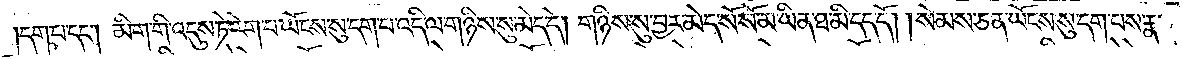དག་པ་དང༌། མིག་གི་འདུས་ཏེ་རེག་པ་ཡོངས་སུ་དག་པ་འདི་ལ་གཉིས་སུ་མེད་དེ། གཉིས་སུ་བྱར་མེད་སོ་སོ་མ་ཡིན་ཐ་མི་དད་དོ། །སེམས་ཅན་ཡོངས་སུ་དག་པས་རྣ་
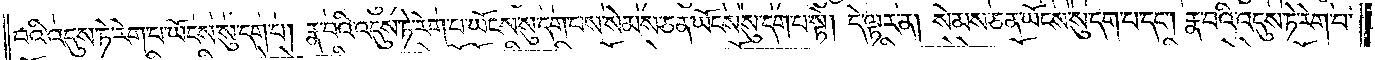བའི་འདུས་ཏེ་རེག་པ་ཡོངས་སུ་དག་པ། རྣ་བའི་འདུས་ཏེ་རེག་པ་ཡོངས་སུ་དག་པས་སེམས་ཅན་ཡོངས་སུ་དག་པ་སྟེ། དེ་ལྟར་ན། སེམས་ཅན་ཡོངས་སུ་དག་པ་དང༌། རྣ་བའི་འདུས་ཏེ་རེག་པ་
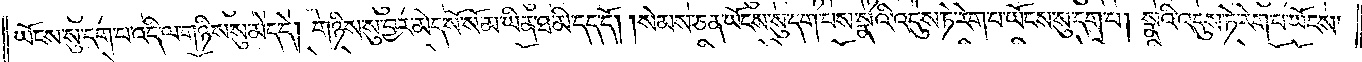ཡོངས་སུ་དག་པ་འདི་ལ་གཉིས་སུ་མེད་དེ། གཉིས་སུ་བྱར་མེད་སོ་སོ་མ་ཡིན་ཐ་མི་དད་དོ། །སེམས་ཅན་ཡོངས་སུ་དག་པས་སྣའི་འདུས་ཏེ་རེག་པ་ཡོངས་སུ་དག་པ། སྣའི་འདུས་ཏེ་རེག་པ་ཡོངས་
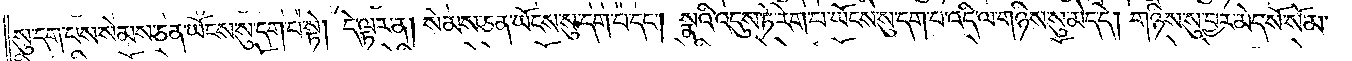སུ་དག་པས་སེམས་ཅན་ཡོངས་སུ་དག་པ་སྟེ། དེ་ལྟར་ན། སེམས་ཅན་ཡོངས་སུ་དག་པ་དང༌། སྣའི་འདུས་ཏེ་རེག་པ་ཡོངས་སུ་དག་པ་འདི་ལ་གཉིས་སུ་མེད་དེ། གཉིས་སུ་བྱར་མེད་སོ་སོ་མ་
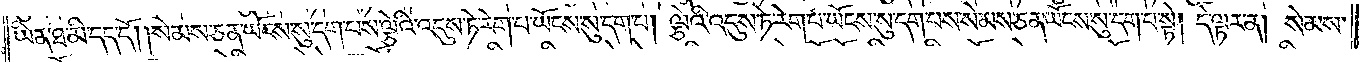ཡིན་ཐ་མི་དད་དོ། །སེམས་ཅན་ཡོངས་སུ་དག་པས་ལྕེའི་འདུས་ཏེ་རེག་པ་ཡོངས་སུ་དག་པ། ལྕེའི་འདུས་ཏེ་རེག་པ་ཡོངས་སུ་དག་པས་སེམས་ཅན་ཡོངས་སུ་དག་པ་སྟེ། དེ་ལྟར་ན། སེམས་
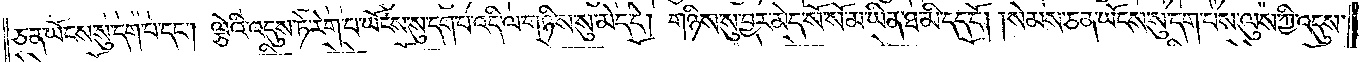ཅན་ཡོངས་སུ་དག་པ་དང༌། ལྕེའི་འདུས་ཏེ་རེག་པ་ཡོངས་སུ་དག་པ་འདི་ལ་གཉིས་སུ་མེད་དེ། གཉིས་སུ་བྱར་མེད་སོ་སོ་མ་ཡིན་ཐ་མི་དད་དོ། །སེམས་ཅན་ཡོངས་སུ་དག་པས་ལུས་ཀྱི་འདུས་
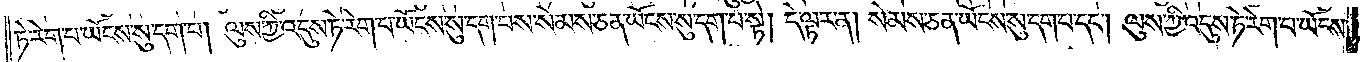ཏེ་རེག་པ་ཡོངས་སུ་དག་པ། ལུས་ཀྱི་འདུས་ཏེ་རེག་པ་ཡོངས་སུ་དག་པས་སེམས་ཅན་ཡོངས་སུ་དག་པ་སྟེ། དེ་ལྟར་ན། སེམས་ཅན་ཡོངས་སུ་དག་པ་དང༌། ལུས་ཀྱི་འདུས་ཏེ་རེག་པ་ཡོངས་
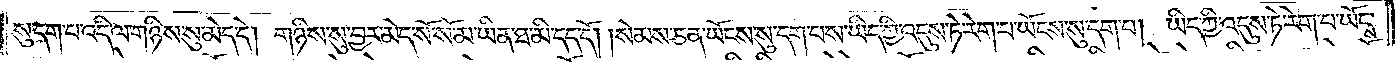སུ་དག་པ་འདི་ལ་གཉིས་སུ་མེད་དེ། གཉིས་སུ་བྱར་མེད་སོ་སོ་མ་ཡིན་ཐ་མི་དད་དོ། །སེམས་ཅན་ཡོངས་སུ་དག་པས་ཡིད་ཀྱི་འདུས་ཏེ་རེག་པ་ཡོངས་སུ་དག་པ། ཡིད་ཀྱི་འདུས་ཏེ་རེག་པ་ཡོངས་
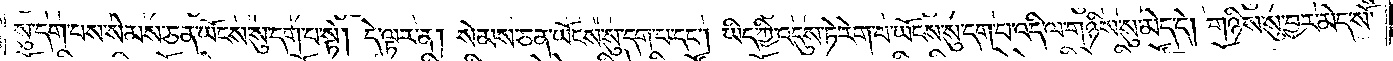སུ་དག་པས་སེམས་ཅན་ཡོངས་སུ་དག་པ་སྟེ། དེ་ལྟར་ན། སེམས་ཅན་ཡོངས་སུ་དག་པ་དང༌། ཡིད་ཀྱི་འདུས་ཏེ་རེག་པ་ཡོངས་སུ་དག་པ་འདི་ལ་གཉིས་སུ་མེད་དེ། གཉིས་སུ་བྱར་མེད་སོ་
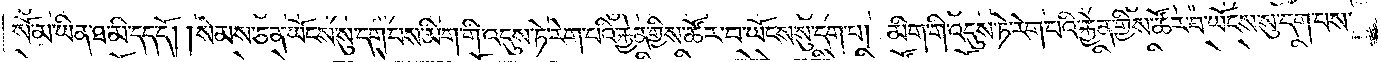སོ་མ་ཡིན་ཐ་མི་དད་དོ། །སེམས་ཅན་ཡོངས་སུ་དག་པས་མིག་གི་འདུས་ཏེ་རེག་པའི་རྐྱེན་གྱིས་ཚོར་བ་ཡོངས་སུ་དག་པ། མིག་གི་འདུས་ཏེ་རེག་པའི་རྐྱེན་གྱིས་ཚོར་བ་ཡོངས་སུ་དག་པས་
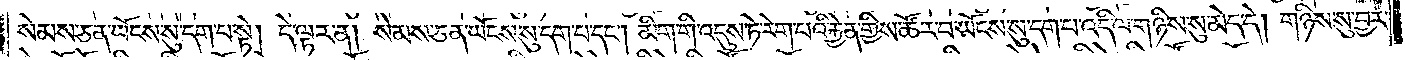སེམས་ཅན་ཡོངས་སུ་དག་པ་སྟེ། དེ་ལྟར་ན། སེམས་ཅན་ཡོངས་སུ་དག་པ་དང༌། མིག་གི་འདུས་ཏེ་རེག་པའི་རྐྱེན་གྱིས་ཚོར་བ་ཡོངས་སུ་དག་པ་འདི་ལ་གཉིས་སུ་མེད་དེ། གཉིས་སུ་བྱར་
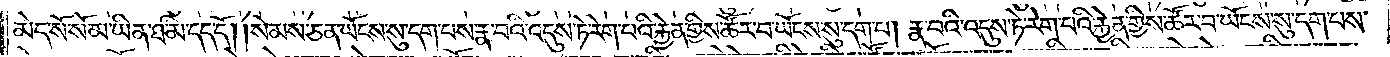མེད་སོ་སོ་མ་ཡིན་ཐ་མི་དད་དོ། །སེམས་ཅན་ཡོངས་སུ་དག་པས་རྣ་བའི་འདུས་ཏེ་རེག་པའི་རྐྱེན་གྱིས་ཚོར་བ་ཡོངས་སུ་དག་པ། རྣ་བའི་འདུས་ཏེ་རེག་པའི་རྐྱེན་གྱིས་ཚོར་བ་ཡོངས་སུ་དག་པས་
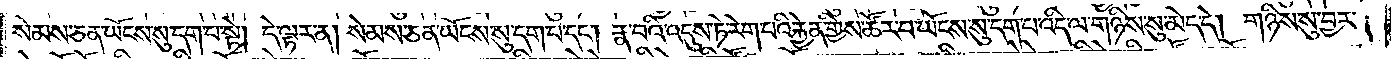སེམས་ཅན་ཡོངས་སུ་དག་པ་སྟེ། དེ་ལྟར་ན། སེམས་ཅན་ཡོངས་སུ་དག་པ་དང༌། རྣ་བའི་འདུས་ཏེ་རེག་པའི་རྐྱེན་གྱིས་ཚོར་བ་ཡོངས་སུ་དག་པ་འདི་ལ་གཉིས་སུ་མེད་དེ། གཉིས་སུ་བྱར་
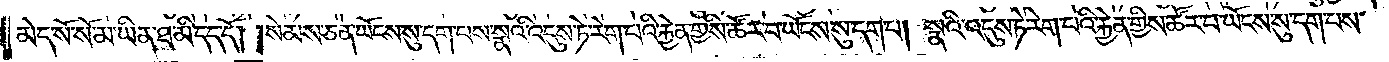མེད་སོ་སོ་མ་ཡིན་ཐ་མི་དད་དོ། །སེམས་ཅན་ཡོངས་སུ་དག་པས་སྣའི་འདུས་ཏེ་རེག་པའི་རྐྱེན་གྱིས་ཚོར་བ་ཡོངས་སུ་དག་པ། སྣའི་འདུས་ཏེ་རེག་པའི་རྐྱེན་གྱིས་ཚོར་བ་ཡོངས་སུ་དག་པས་
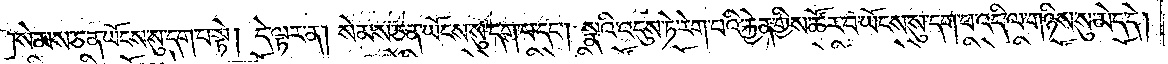སེམས་ཅན་ཡོངས་སུ་དག་པ་སྟེ། དེ་ལྟར་ན། སེམས་ཅན་ཡོངས་སུ་དག་པ་དང༌། སྣའི་འདུས་ཏེ་རེག་པའི་རྐྱེན་གྱིས་ཚོར་བ་ཡོངས་སུ་དག་པ་འདི་ལ་གཉིས་སུ་མེད་དེ།
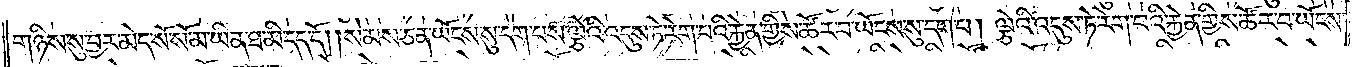གཉིས་སུ་བྱར་མེད་སོ་སོ་མ་ཡིན་ཐ་མི་དད་དོ། །སེམས་ཅན་ཡོངས་སུ་དག་པས་ལྕེའི་འདུས་ཏེ་རེག་པའི་རྐྱེན་གྱིས་ཚོར་བ་ཡོངས་སུ་དག་པ། ལྕེའི་འདུས་ཏེ་རེག་པའི་རྐྱེན་གྱིས་ཚོར་བ་ཡོངས་
